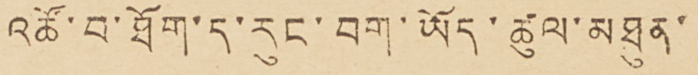འཚོ་བ་ཐོག་ད་རུང་བག་ཡོད་ཚུལ་མཐུན་
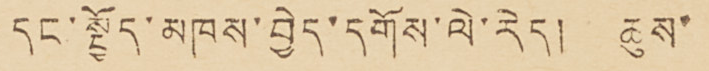དང་སྤྱོད་མཁས་བྱེད་དགོས་ལེ་རེད། ཆུས་
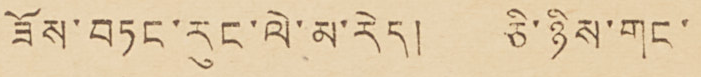ཟོས་བཏང་རུང་ལེ་མ་རེད། ཅི་ཉིས་གང་
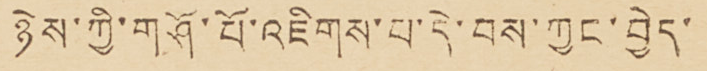ཉེས་ཀྱི་གཤོ་པོ་འཇིགས་པ་དེ་བས་ཀྱང་བྱེད་
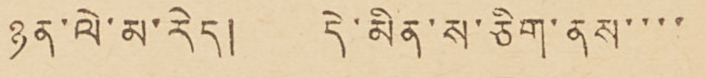ཉན་ལེ་མ་རེད། དེ་མིན་ས་ཅིག་ནས་་་་
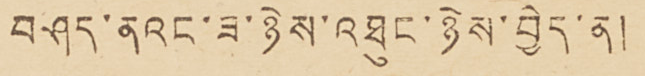བཤད་ནའང་ཟ་ཉེས་འཐུང་ཉེས་བྱེད་ན།
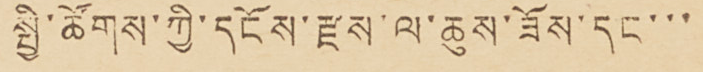སྤྱི་ཚོགས་ཀྱི་དངོས་རྫས་ལ་ཆུས་ཟོས་དང་་་
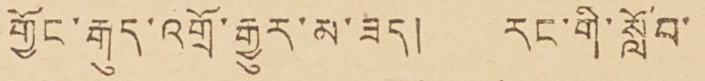གྱོང་རྒུད་འགྲོ་རྒྱུར་མ་ཟད། རང་གི་སློབ་
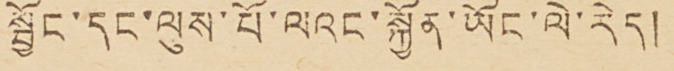སྦྱོང་དང་ལུས་པོ་ལའང་སྐྱོན་ཡོང་ལེ་རེད།
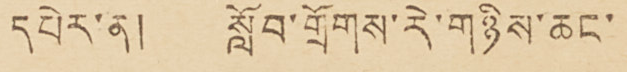དཔེར་ན། སློབ་གྲོགས་རེ་གཉིས་ཆང་
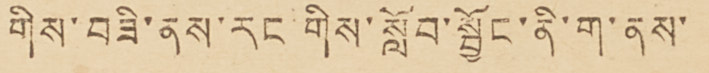གིས་བཟི་ནས་རང་གིས་སློབ་སྦྱོང་ནི་ག་ནས་
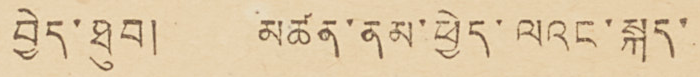བྱེད་ཐུབ། མཚན་ནམ་ཕྱེད་ལའང་སྐད་
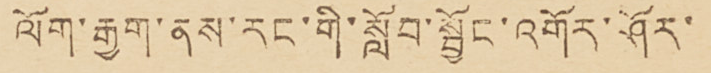ལོག་རྒྱག་ནས་རང་གི་སློབ་སྦྱོང་འགོར་ཤོར་
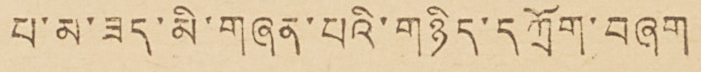པ་མ་ཟད་མི་གཞན་པའི་གཉིད་དཀྲོག་བཞག
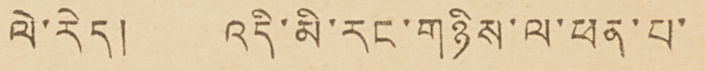ལེ་རེད། འདི་མི་རང་གཉིས་ལ་ཕན་པ་
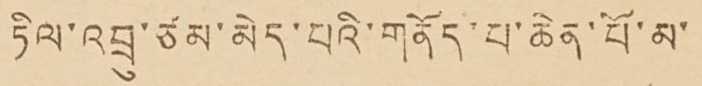ཏིལ་འབྲུ་ཙམ་མེད་པའི་གནོད་པ་ཆེན་པོ་མ་
